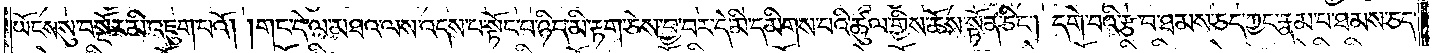ཡོངས་སུ་བསྔོར་མི་འཇུག་པའོ། །གང་དེ་ལ་མཐའ་ལས་འདས་པ་སྟོང་བ་ཉིད་མི་རྟག་ཅེས་བྱ་བར་དེ་མི་དམིགས་པའི་ཚུལ་གྱིས་ཆོས་སྟོན་ཅིང༌། དགེ་བའི་རྩ་བ་ཐམས་ཅད་ཀྱང་རྣམ་པ་ཐམས་ཅད་
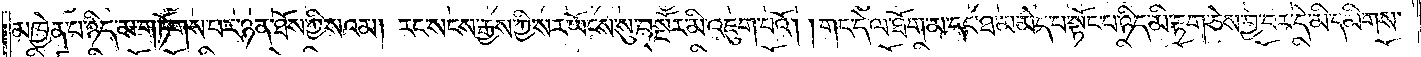མཁྱེན་པ་ཉིད་མ་གཏོགས་པར་ཉན་ཐོས་ཀྱི་སའམ། རང་སངས་རྒྱས་ཀྱི་སར་ཡོངས་སུ་བསྔོར་མི་འཇུག་པའོ། །གང་དེ་ལ་ཐོག་མ་དང་ཐ་མ་མེད་པ་སྟོང་པ་ཉིད་མི་རྟག་ཅེས་བྱ་བར་དེ་མི་དམིགས་
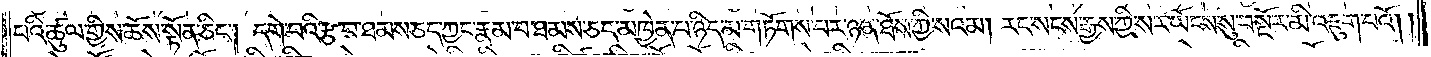པའི་ཚུལ་གྱིས་ཆོས་སྟོན་ཅིང༌། དགེ་བའི་རྩ་བ་ཐམས་ཅད་ཀྱང་རྣམ་པ་ཐམས་ཅད་མཁྱེན་པ་ཉིད་མ་གཏོགས་པར་ཉན་ཐོས་ཀྱི་སའམ། རང་སངས་རྒྱས་ཀྱི་སར་ཡོངས་སུ་བསྔོར་མི་འཇུག་པའོ༎
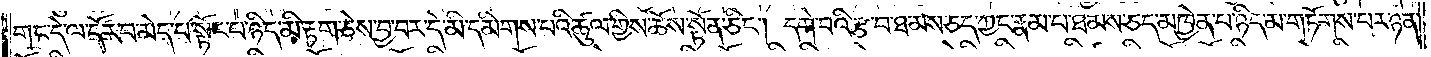གང་དེ་ལ་དོར་བ་མེད་པ་སྟོང་པ་ཉིད་མི་རྟག་ཅེས་བྱ་བར་དེ་མི་དམིགས་པའི་ཚུལ་གྱིས་ཆོས་སྟོན་ཅིང༌། དགེ་བའི་རྩ་བ་ཐམས་ཅད་ཀྱང་རྣམ་པ་ཐམས་ཅད་མཁྱེན་པ་ཉིད་མ་གཏོགས་པར་ཉན་
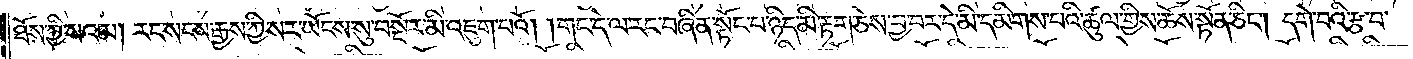ཐོས་ཀྱི་སའམ། རང་སངས་རྒྱས་ཀྱི་སར་ཡོངས་སུ་བསྔོར་མི་འཇུག་པའོ། །གང་དེ་ལ་རང་བཞིན་སྟོང་པ་ཉིད་མི་རྟག་ཅེས་བྱ་བར་དེ་མི་དམིགས་པའི་ཚུལ་གྱིས་ཆོས་སྟོན་ཅིང༌། དགེ་བའི་རྩ་བ་
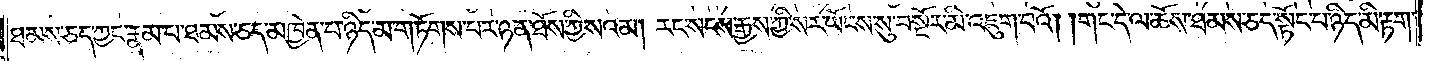ཐམས་ཅད་ཀྱང་རྣམ་པ་ཐམས་ཅད་མཁྱེན་པ་ཉིད་མ་གཏོགས་པར་ཉན་ཐོས་ཀྱི་སའམ། རང་སངས་རྒྱས་ཀྱི་སར་ཡོངས་སུ་བསྔོར་མི་འཇུག་པའོ། །གང་དེ་ལ་ཆོས་ཐམས་ཅད་སྟོང་པ་ཉིད་མི་རྟག་
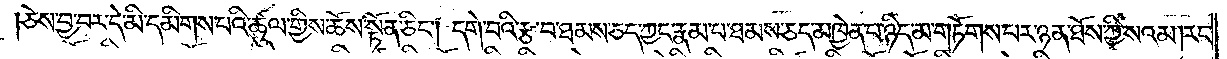ཅེས་བྱ་བར་དེ་མི་དམིགས་པའི་ཚུལ་གྱིས་ཆོས་སྟོན་ཅིང༌། དགེ་བའི་རྩ་བ་ཐམས་ཅད་ཀྱང་རྣམ་པ་ཐམས་ཅད་མཁྱེན་པ་ཉིད་མ་གཏོགས་པར་ཉན་ཐོས་ཀྱི་སའམ། རང་
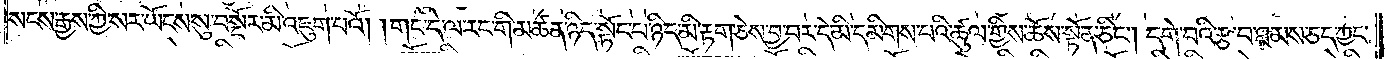སངས་རྒྱས་ཀྱི་སར་ཡོངས་སུ་བསྔོར་མི་འཇུག་པའོ། །གང་དེ་ལ་རང་གི་མཚན་ཉིད་སྟོང་པ་ཉིད་མི་རྟག་ཅེས་བྱ་བར་དེ་མི་དམིགས་པའི་ཚུལ་གྱིས་ཆོས་སྟོན་ཅིང༌། དགེ་བའི་རྩ་བ་ཐམས་ཅད་ཀྱང་
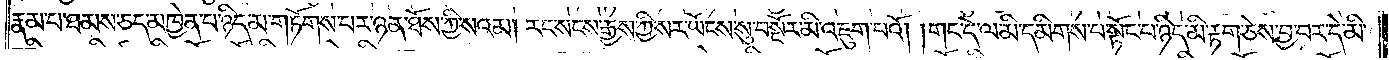རྣམ་པ་ཐམས་ཅད་མཁྱེན་པ་ཉིད་མ་གཏོགས་པར་ཉན་ཐོས་ཀྱི་སའམ། རང་སངས་རྒྱས་ཀྱི་སར་ཡོངས་སུ་བསྔོར་མི་འཇུག་པའོ། །གང་དེ་ལ་མི་དམིགས་པ་སྟོང་པ་ཉིད་མི་རྟག་ཅེས་བྱ་བར་དེ་མི་
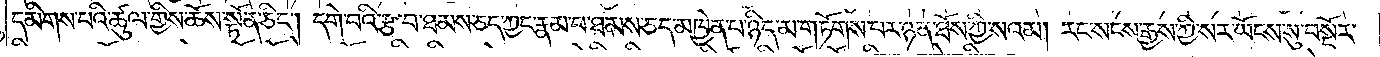དམིགས་པའི་ཚུལ་གྱིས་ཆོས་སྟོན་ཅིང༌། དགེ་བའི་རྩ་བ་ཐམས་ཅད་ཀྱང་རྣམ་པ་ཐམས་ཅད་མཁྱེན་པ་ཉིད་མ་གཏོགས་པར་ཉན་ཐོས་ཀྱི་སའམ། རང་སངས་རྒྱས་ཀྱི་སར་ཡོངས་སུ་བསྔོར་
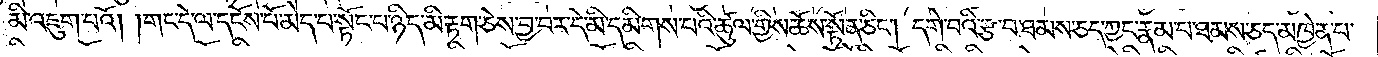མི་འཇུག་པའོ། །གང་དེ་ལ་དངོས་པོ་མེད་པ་སྟོང་པ་ཉིད་མི་རྟག་ཅེས་བྱ་བར་དེ་མི་དམིགས་པའི་ཚུལ་གྱིས་ཆོས་སྟོན་ཅིང༌། དགེ་བའི་རྩ་བ་ཐམས་ཅད་ཀྱང་རྣམ་པ་ཐམས་ཅད་མཁྱེན་པ་
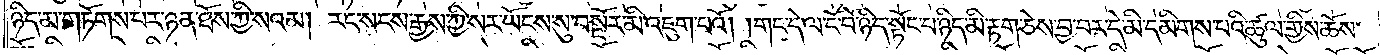ཉིད་མ་གཏོགས་པར་ཉན་ཐོས་ཀྱི་སའམ། རང་སངས་རྒྱས་ཀྱི་སར་ཡོངས་སུ་བསྔོར་མི་འཇུག་པའོ། །གང་དེ་ལ་ངོ་བོ་ཉིད་སྟོང་བ་ཉིད་མི་རྟག་ཅེས་བྱ་བར་དེ་མི་དམིགས་པའི་ཚུལ་གྱིས་ཆོས་
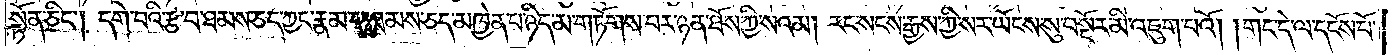སྟོན་ཅིང༌། དགེ་བའི་རྩ་བ་ཐམས་ཅད་ཀྱང་རྣམ་པ་ཐམས་ཅད་མཁྱེན་པ་ཉིད་མ་གཏོགས་པར་ཉན་ཐོས་ཀྱི་སའམ། རང་སངས་རྒྱས་ཀྱི་སར་ཡོངས་སུ་བསྔོར་མི་འཇུག་པའོ། །གང་དེ་ལ་དངོས་པོ་
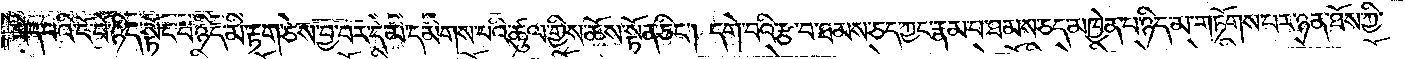མེད་པའི་ངོ་བོ་ཉིད་སྟོང་པ་ཉིད་མི་རྟག་ཅེས་བྱ་བར་དེ་མི་དམིགས་པའི་ཚུལ་གྱིས་ཆོས་སྟོན་ཅིང༌། དགེ་བའི་རྩ་བ་ཐམས་ཅད་ཀྱང་རྣམ་པ་ཐམས་ཅད་མཁྱེན་པ་ཉིད་མ་གཏོགས་པར་ཉན་ཐོས་ཀྱི་
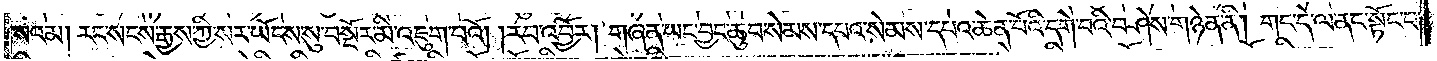སའམ། རང་སངས་རྒྱས་ཀྱི་སར་ཡོངས་སུ་བསྔོར་མི་འཇུག་པའོ། །རབ་འབྱོར། གཞན་ཡང་བྱང་ཆུབ་སེམས་དཔའ་སེམས་དཔའ་ཆེན་པོའི་དགེ་བའི་བཤེས་གཉེན་ནི། གང་དེ་ལ་ནང་སྟོང་པ་
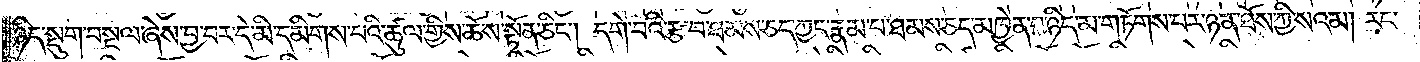ཉིད་སྡུག་བསྔལ་ཞེས་བྱ་བར་དེ་མི་དམིགས་པའི་ཚུལ་གྱིས་ཆོས་སྟོན་ཅིང༌། དགེ་བའི་རྩ་བ་ཐམས་ཅད་ཀྱང་རྣམ་པ་ཐམས་ཅད་མཁྱེན་པ་ཉིད་མ་གཏོགས་པར་ཉན་ཐོས་ཀྱི་སའམ། རང་
